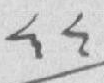༨༨
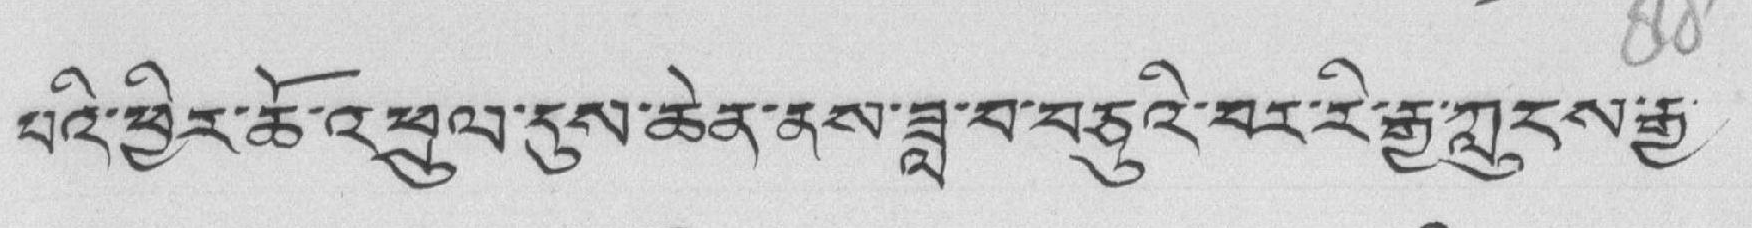པའི་ཕྱིར་ཆོ་འཕྲུལ་དུས་ཆེན་ནས་ཟླ་བ་བཅུའི་བར་རི་རྒྱ་ཀླུངས་རྒྱ་
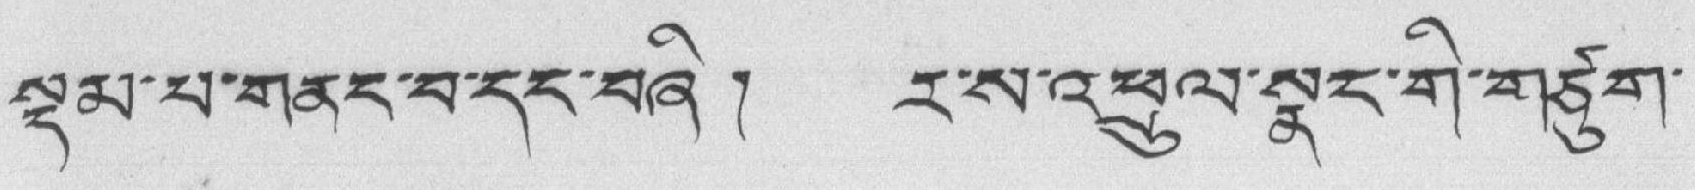སྡམ་པ་གནད་བ་དང་བཞི ། ར་ས་འཕྲུལ་སྣང་གི་གཙུག་
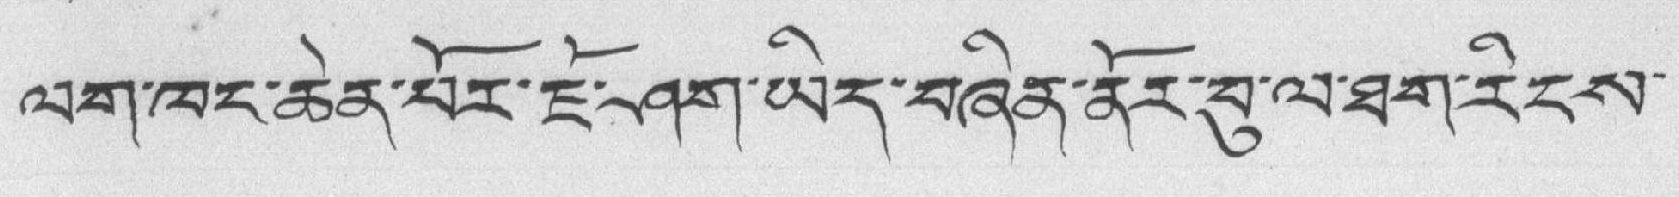ལག་ཁང་ཆེན་པོར་ཇོ་ཤག་ཡིད་བཞིན་ནོར་བུ་ལ་ཐག་རིངས་
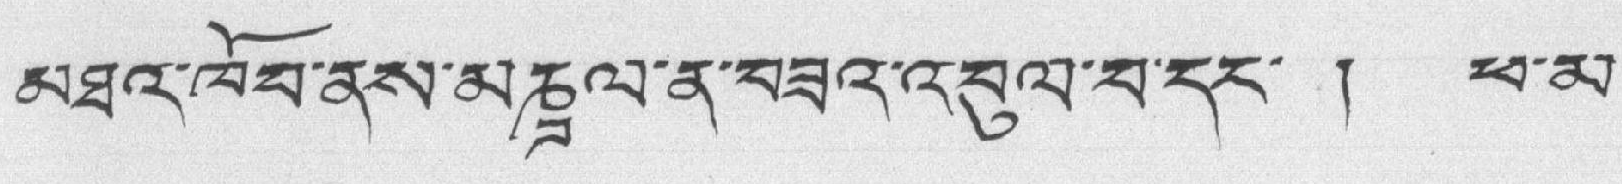མཐའ་ཁོབ་ནས་མཎྜལ་ན་བཟའ་འབུལ་བ་དང་ ། ཕ་མ་
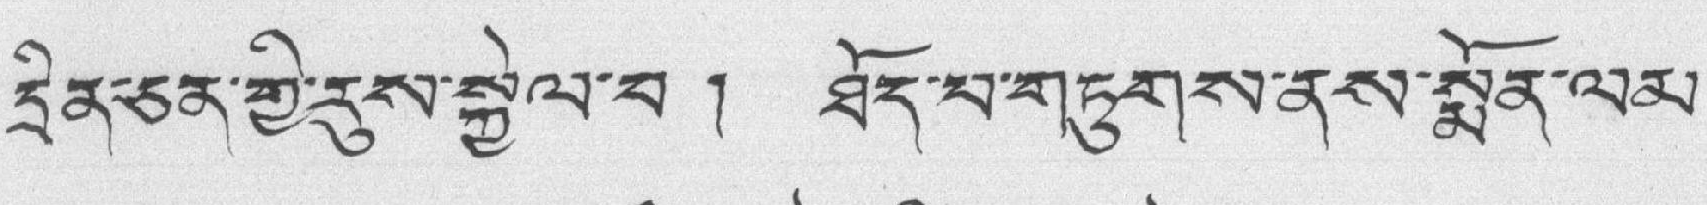དྲིན་ཅན་གྱི་རུས་སྐྱེལ་བ ། ཐོད་བ་གཏུགས་ནས་སྨོན་ལམ་
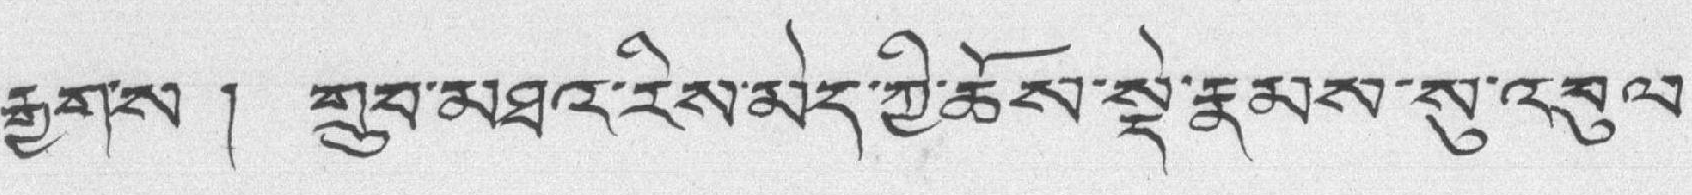རྒྱག་ས ། གྲུབ་མཐའ་རིས་མེད་ཀྱི་ཆོས་སྡེ་རྣམས་སུ་འབུལ་
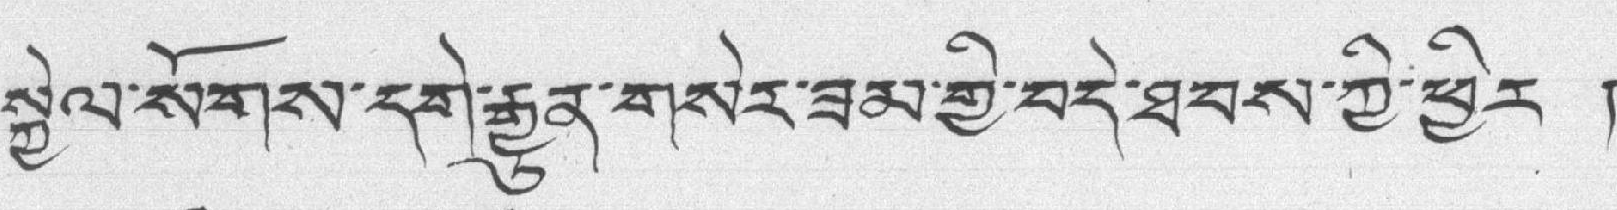སྐྱེལ་སོགས་དགེ་རྒྱུན་གསེར་ཟམ་གྱི་བདེ་ཐབས་ཀྱི་ཕྱིར །
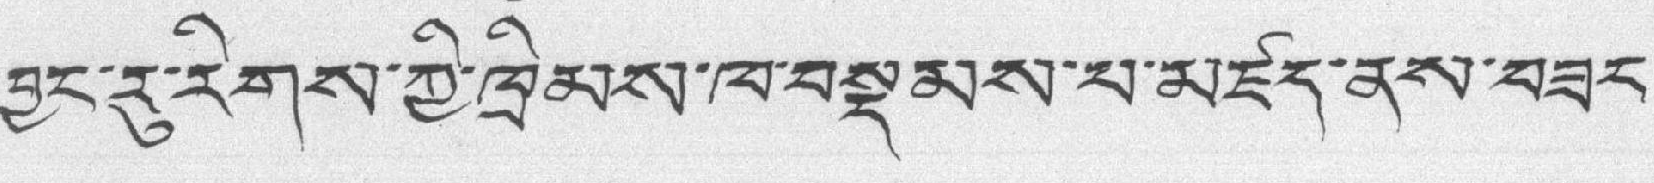བྱང་རུ་རིགས་ཀྱི་ཁྲིམས་ཁ་བསྡམས་པ་མཛད་ནས་བཟང་
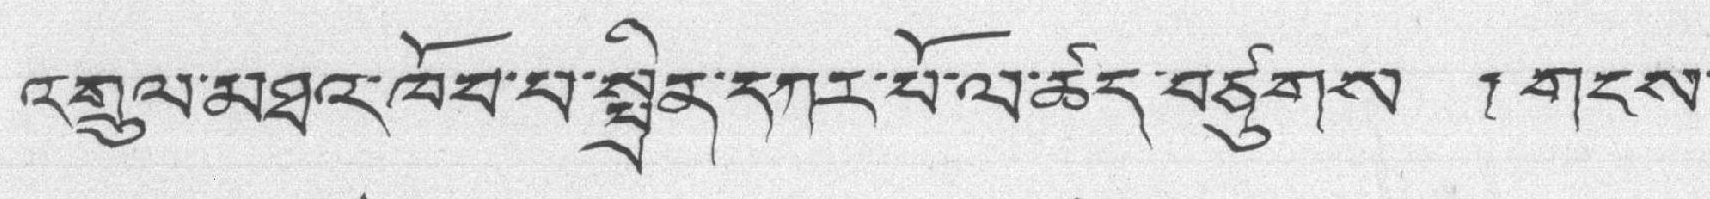འགྲུལ་མཐའ་ཁོབ་པ་སྤྲིན་དཀར་པོ་ལ་ཚད་བཙུགས ། གངས་
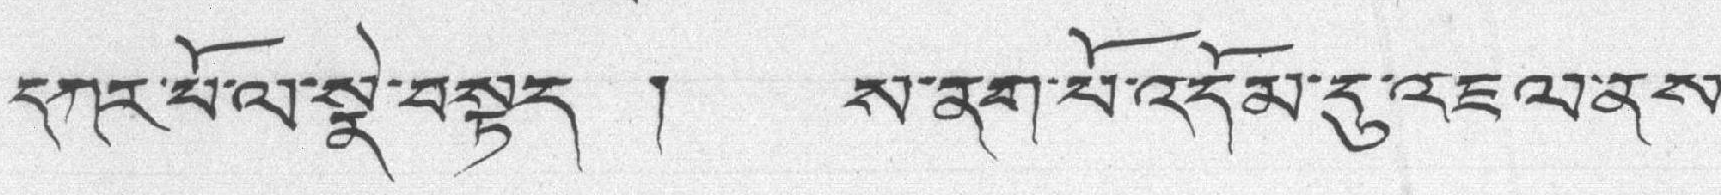དཀར་པོ་ལ་སྣེ་བསྟད ། ས་ནག་པོ་འདོམ་དུ་འཇལ་ནས་
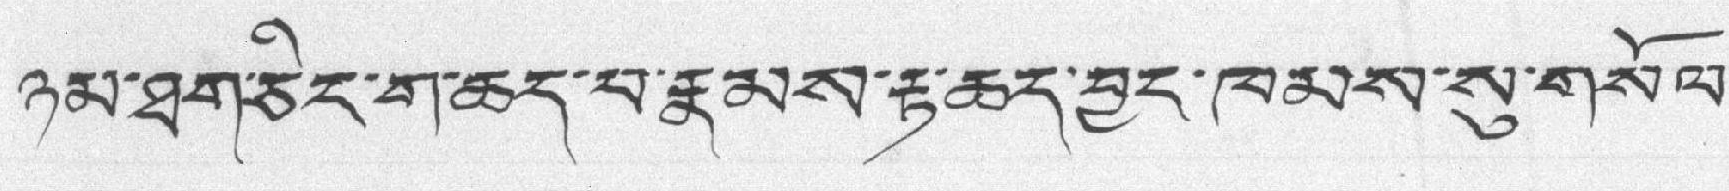ཉམ་ཐག་ཅིང་ག་ཆད་པ་རྣམས་རྟ་ཆད་བྱང་ཁམས་སུ་གསོལ་
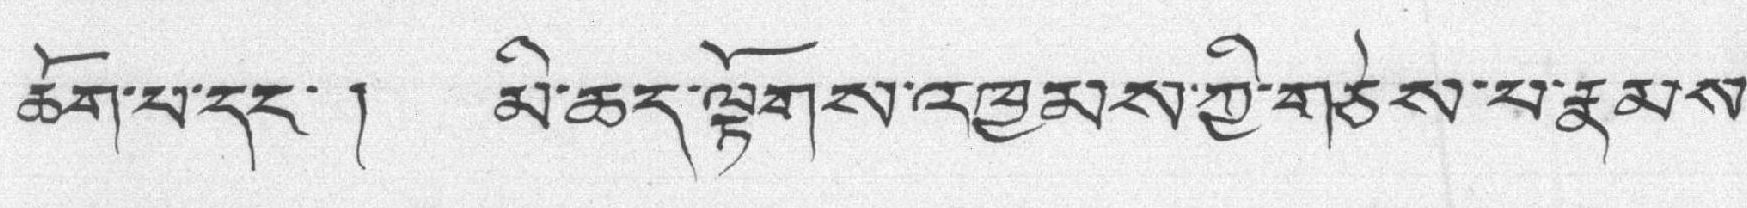ཆོག་པ་དང་། མི་ཆད་ལྟོགས་འཁྱམས་ཀྱི་གཅེས་པ་རྣམས་
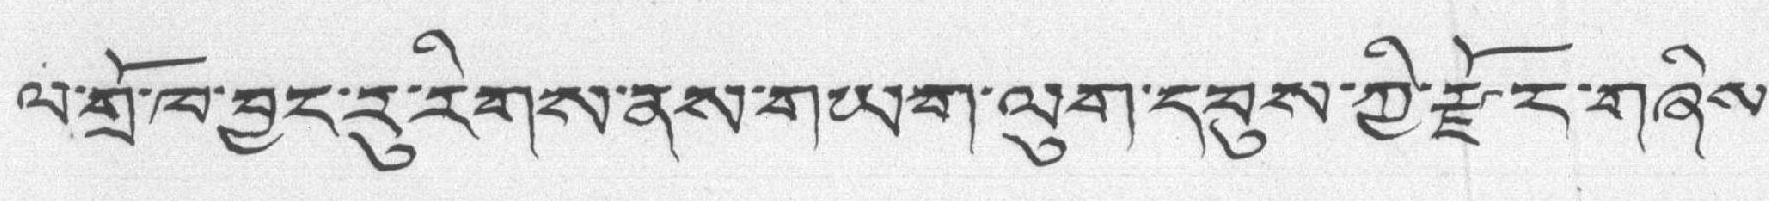ལ་གྲོ་ཁ་བྱང་རུ་རིགས་ནས་གཡག་ལུག་དབུས་ཀྱི་རྫོང་གཞིས་
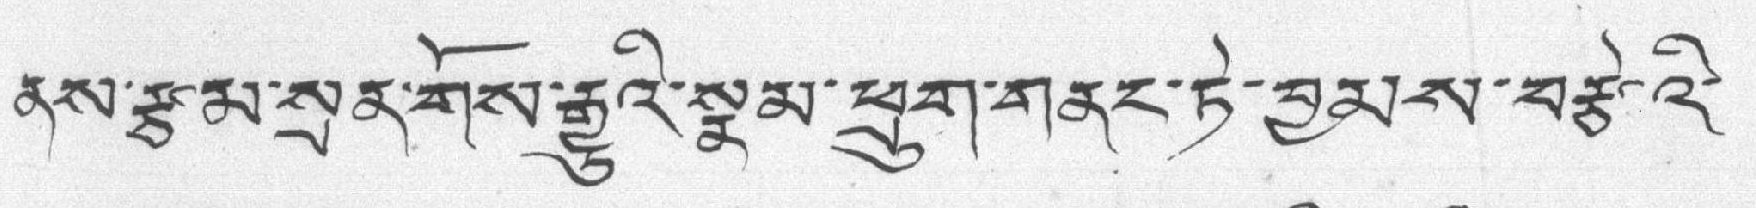ནས་རྩམ་སྲན་གོས་རྒྱུའི་སྣམ་ཕྲུག་གནང་ཏེ་བྱམས་བརྩེའི་
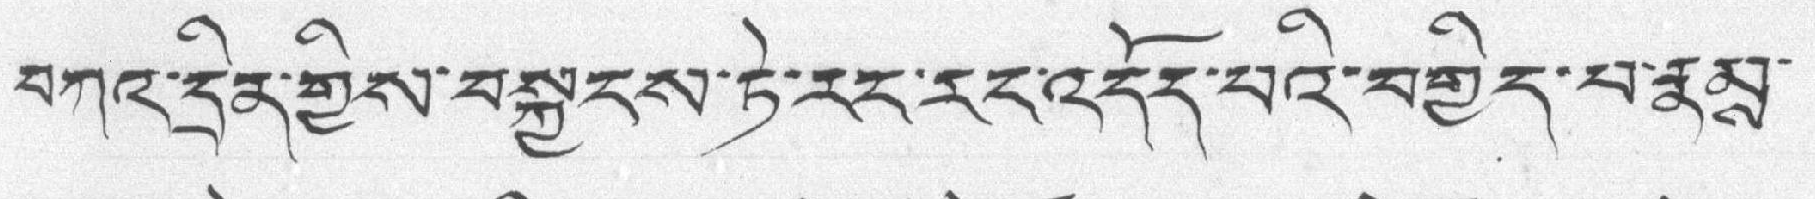བཀའ་དྲིན་གྱིས་བསྐྱངས་ཏེ་རང་རང་འདོད་པའི་བགྱིད་པ་རྣམས་
